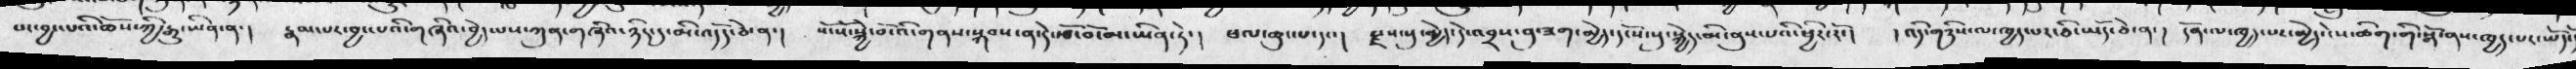པང་བྱང་པའི་ཆོས་ཀྱི་རྒྱུ་ཡིན་ན་།  རྣམ་པར་བྱ་པའི་གཞིའ་བྱེད་པས་ཀུན་གཞིའ་ཉིད་དུ་མི་འདོད་ཅེ་ན་།  སོ་སོ་སྐྱེ་བོ་འི་གནས་སྐབས་ན་དེ་རྩོ་བོ་མ་ཡིན་ཏེ་།  ཐལ་ཆུང་པ་དང་།  རྫས་སུ་གྱེད་དེ་འབྲས་བུ་ཟག་མྱེད་དངོས་སུ་སྐྱེད་མི་ནུས་པའི་ཕྱིར་རོ་།  ། འདི་གཉིས་ལ་ཁྱད་པར་ཅི་ཡོད་ཅེ་ན་།  དོན་ལ་ཁྱད་པར་མྱེད་ངེས་ཚིག་གི་སྒོ་ནས་ཁྱད་པར་ཡོད་
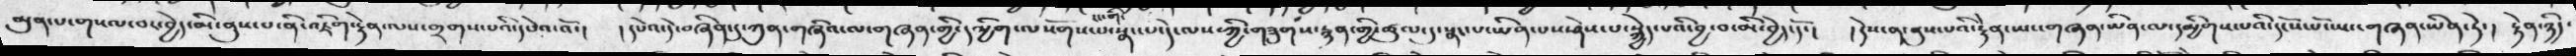མུན་པ་གསལ་བར་བྱེད་མི་ནུས་པ་ནི་འཇིག་རྟེན་ལས་གྲགས་པའི་དཔེའ་འོ་།  ། དཔེའ་དེ་བཞིན་དུ་ཀུན་གཞིའ་ལ་གཞན་གྱི་དམྱིག་ལསོགས་པ་སྣང་པ་དེ་ལས་ཀྱི་གཟུགས་རྙན་གྱི་ཚུལ་དུ་སྣང་པ་ཡིན་པས་ཤེས་པ་སྐྱེད་པའི་བྱ་བ་མི་བྱེད་དོ་།   ། དེས་ན་ནུས་པའི་རྟེན་ཡང་གཞན་མིན་ལ་དམྱིགས་པའི་དངོས་པོ་སྤང་གཞན་ཡིན་ཏེ་།   རྟེན་ཉྱིད་
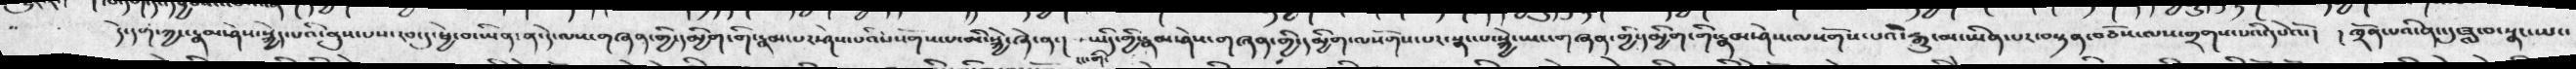དེ་དག་ཀྱང་རྣམ་ཤེས་སྐྱེད་པའི་ནུས་པས་རབ་དུ་ཕྱེ་བ་ཡིན་ན་དེ་ལས་གཞན་གྱི་དམྱིག་གི་རྣམ་པར་ཤེས་པའི་ལསོགས་པ་མི་སྐྱེ་ཞེ་ན་།   ཡིད་ཀྱི་རྣམ་ཤེས་གཞན་གྱི་དམྱིག་ལསོགས་པར་སྣང་པ་སྐྱེ་ཡང་གཞན་གྱི་དམྱིག་གི་རྣམ་ཤེས་ལསོགས་པའི་རྒྱུ་མ་ཡིན་པར་བསྟན་བཅོས་ལས་གྲགས་པའི་དཔེ་ལོ།   །  ཁྲོན་པའི་ནང་དུ་ཟླ་བ་སྣང་ཡང་
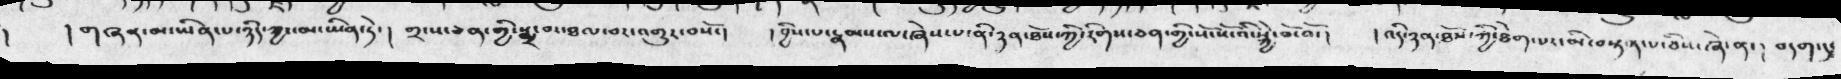།  གཞན་མ་ཡིན་པ་ཉིད་ཀྱང་མ་ཡིན་ཏེ་།  ༢་པ་ཅན་གྱི་སྨྲ་བ་ཐལ་བར་འགྱུར་བསོ་།  ། བྱིས་པ་རྣམས་ལ་ཞེས་པ་ནི་ཉན་ཐོས་ཀྱི་རིགས་ཅན་གྱི་སོ་སོ་འི་སྐྱེ་བོ་འོ་།    ། འདི་ཉན་ཐོས་ཀྱི་ཐེག་པར་མི་བསྟན་པ་ཅིས་ཞེ་ན་།  བདག་དུ་
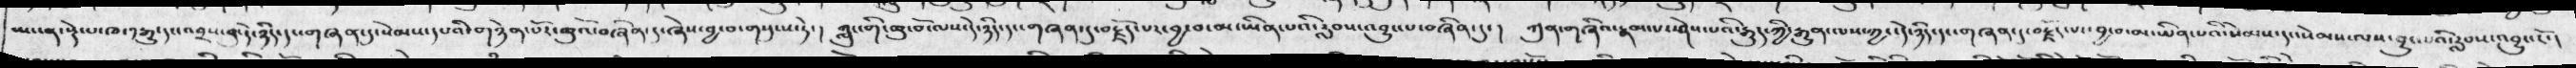ཡང་ན་སྡེ་པ་ཁ་༡རྒྱུ་དང་འབྲས་བུ་དེ་ཉིད་དང་གཞན་དུ་སེམས་དཔའི་གཉེན་པོར་ཆུའོ་བཞིན་དུ་ཞེས་བྱ་བ་གསུངས་ཏེ་།  ཀླུང་གི་ཆུ་བོ་ལས་དེ་ཉིད་དང་གཞན་དུ་བརྗོད་པར་བྱ་བ་མ་ཡིན་པའི་རླབས་འབྱུང་པ་བཞིན་དུ་། ཀུན་གཞིའ་རྣམ་པ་ཤེས་པའི་རྒུད་ཀྱི་རྒྱུན་ལས་ཀྱང་དེ་ཉིད་དང་གཞན་དུ་བརྗོད་པར་བྱ་བ་མ་ཡིན་པའི་སེམས་དང་སེམས་ལས་བྱུང་པའི་རླབས་འབྱུང་ངོ་།
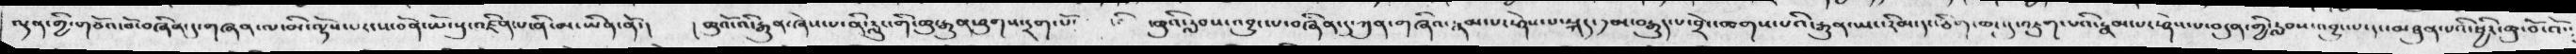ལྡན་གྱི་གཙོ་བོ་བཞིན་དུ་གཞན་ལ་མི་ལྟོས་པར་ས་བོན་ཡོངས་སུ་འཛིན་པ་ནི་མ་ཡིན་ནོ་།   ། ཆུའོ་འི་རྒྱུན་ཞེས་པ་ནི་རླུང་གི་ཆུ་རྒྱུན་ཕུགས་དྲག་པོ་  ཆུའི་རླབས་འབྱུང་པ་བཞིན་དུ་ཀུན་གཞིའ་རྣམ་པར་ཤེས་པ་སྐད་༡མ་བརྒྱུད་པ་བྲེང་ཆགས་པའི་རྒྱུན་ཡང་རིམ་དང་ཅིག་ཆར་དུ་འཇུག་པའི་རྣམ་པར་ཤེས་པ་བདུན་གྱི་རླབས་འབྱུང་པ་དང་མཐུན་པའི་ཕྱིར་ཆུ་བོ་འོ༴
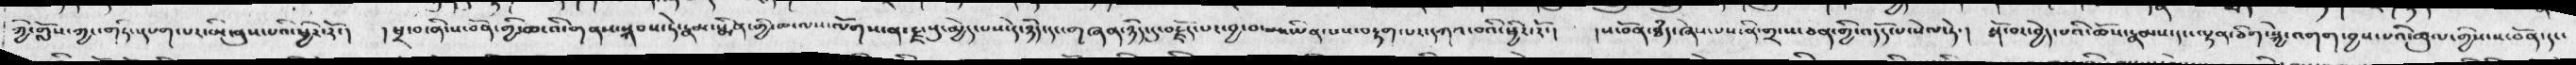ཀྱི་གློས་ཀྱང་གཏིང་དཔག་པར་མི་ནུས་པའི་ཕྱིར་རོ་།  །ཕྲ་བ་ནི་ས་བོན་གྱི་ཆ་འི་གནས་སྐབས་ཏེ་རྣམ་སྨིན་གྱི་ཆ་ལས་ལོགས་ན་རྫསུ་མྱེད་པས་དེ་ཉིད་དང་གཞན་ཉིད་དུ་བརྗོད་པར་བྱ་བ་མ་ཡིན་པས་བརྟག་པར་དཀའ་བའི་ཕྱིར་རོ་།  །ས་བོན་ཐཾད་ཞེས་པས་ནི་གྲངས་ཅན་གྱི་འདོད་པ་སེལ་ཏེ་།  སྒོ་བར་བྱེད་པའི་ཆོས་རྣམས་དང་ལྷན་ཅིག་སྐྱེ་འགག་བྱས་པའི་ཚུལ་གྱིས་ས་བོན་དང་།
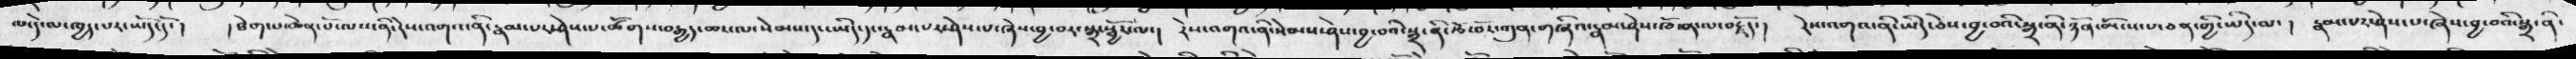ལ་དེ་ལ་ཁྱད་པར་ཡོད་དོ་།  །ཐེག་པ་ཆེན་པོ་ལས་ནི་ངེས་འགའ་ནི་རྣམ་པར་ཤེས་་པ་ཚོགས་བརྒྱད་ཆར་ལ་སེམས་དང་ཡིད་དང་རྣམ་པར་ཤེས་པ་ཞེས་བྱ་བར་སྒྲ་སྦྱོར་ལ་།  རེས་འགའ་ན་ིསེམས་ཤེས་བྱ་བའི་སྒྲ་ནི་རྩོ་བོར་ཀུན་གཞིའ་རྣམ་ཤེས་ཁོ་ན་ལ་བརྗོད་།  རེས་འགའ་ནི་ཡིད་ཅེས་བྱ་བའི་སྒྲ་ནི་ཉོན་མོངས་པ་ཅན་གྱི་ཡིད་ལ་།   རྣམ་པར་ཤེས་པ་ཞེས་་བྱ་བའི་སྒྲ་ནི་
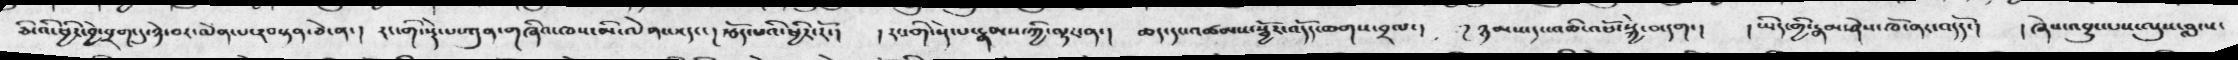ཅི་འི་ཕྱིར་བྱེ་བྲག་དུ་ཉེ་བར་ལེན་པ་༢་བསྟན་ཅེ་ན་།  རང་གི་སྡེ་པས་ཀུན་གཞིའ་ཁས་མི་ལེན་པད་། རྩོད་པའི་ཕྱིར་རོ་།  ། རང་གི་སྡེ་པ་རྣམས་ཀྱི་ལྟར་ན་།  ཆད་དང་འཚམས་སྦྱོར་འདོད་ཆགས་བྲལ་།  ། ཉམས་དང་འཆི་འཕོ་སྐྱེ་བ་དག་།  ། ཡིད་གྱི་རྣམ་ཤེས་ཁོ་ནར་འདོད་།  ། ཞེས་འབྱང་པས་ལུས་བླངས་
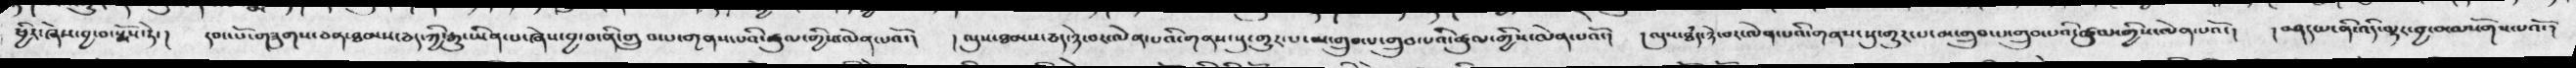ཕྱིར་ཞེས་བྱ་བ་སྨོས་ཏེ་།  དབང་པོ་གཟུགས་ཅན་ཐམས་ཅད་ཀྱི་རྒྱུ་ཡིན་པ་ཞེས་བྱ་ན་གྲུབ་པ་གནས་པའི་ཚུལ་གྱི་ལེན་པའོ་།  ། ལུས་ཐམས་ཅད་ཉེ་བར་ལེན་པའི་གནས་སུ་གྱུར་པ་མ་གྲུབ་པ་གྲུབ་པའི་ཚུལ་གྱིས་ལེན་པའོ་།  ། ལུས་ཐཾད་ཉེ་བར་ལེན་པའི་གནས་སུ་གྱུར་པ་མ་གྲུབ་པ་གྲུབ་པའི་ཚུལ་གྱིས་ལེན་པའོ་།  ། བཤད་པ་ནི་འདི་ལྟར་བྱ་བ་ལསོགས་པའོ་།
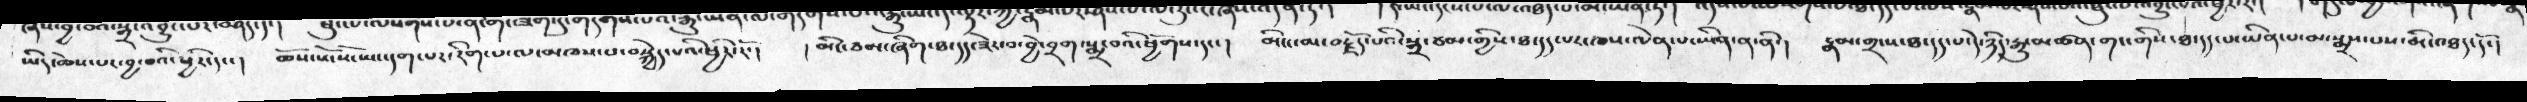ཡིད་ཆེས་པར་བྱ་བའི་ཕྱིར་དང་།  ཆོས་སོ་སོ་ཡང་དག་པར་རིག་པ་ལ་མཁས་པ་བསྐྱེད་པའི་ཕྱིར་རོ་།  ། མིང་ཙམ་ཞིག་ཐ་དད་ཟེར་བ་བྱེ་བྲག་སྨྲ་བའི་ཕྱོགས་དང་།   མིང་མ་བརྗོད་པའི་སྒྲ་ཙམ་གྱིས་ཐ་དད་པར་ཁས་ལེན་པ་ཡིན་ན་ནི།     རྣམ་གྲངས་ཐ་དད་པ་དེ་ཉིད་རྒྱུ་མཚན་གང་གིས་ཐ་དད་པ་ཡིན་པ་མ་སྨྲས་པས་མི་འཐད་དོ་།
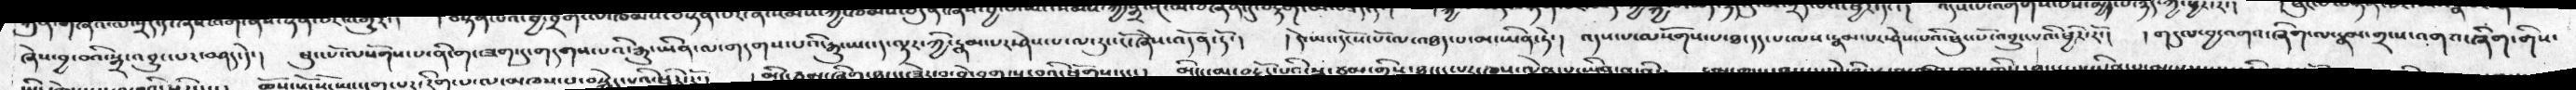ཞེས་བྱ་བའི་སྒྲ་འབྱུང་པར་བཤད་དེ་།  ཕུང་པོ་ལསོགས་པ་ནི་གང་ཟག་དུ་གདགས་པའི་རྒྱུ་ཡིན་ལ་གདགས་པའི་རྒྱུ་ཡང་ད་ལྟར་ཀྱི་རྣམ་པར་ཤེས་པ་ལ་རུང་ངོ་ཞེས་འདོན་དོ་།  དེ་ཡང་དངོས་པོ་ལ་འཐད་པ་མ་ཡིན་ཏེ་།  འདས་པ་ལསོགས་པ་ཐ་དད་པ་ལས་རྣམ་པར་ཤེས་པའི་ཕུང་པོ་འབྱུང་པའི་ཕྱིར་རོ་།  །  གདུལ་བྱ་འགའ་ཞིག་ལ་རྣམ་གྲངས་འགའ་ཞིག་གིས་
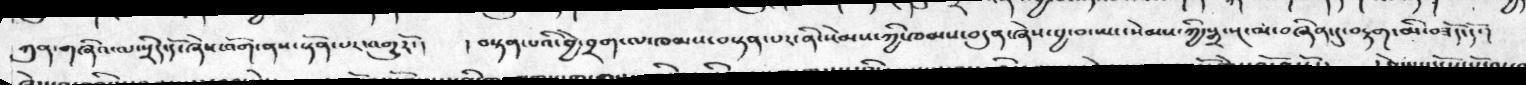ཀུན་གཞིའ་ལ་སྲིད་དོ་ཞེས་འོག་ནས་སྟོན་པར་འགྱུརོ་།  ། བསྟན་པའི་བྱེ་བྲག་ལ་ཁམས་བསྟན་པར་ནི་སེམས་ཀྱི་ཁམས་བདུན་ཞེས་བྱ་བ་ཡང་སེམས་ཀྱི་སྒྲ་སྔ་མ་བཞིནདུ་བརྟག་མི་བཟོད་དོ་།
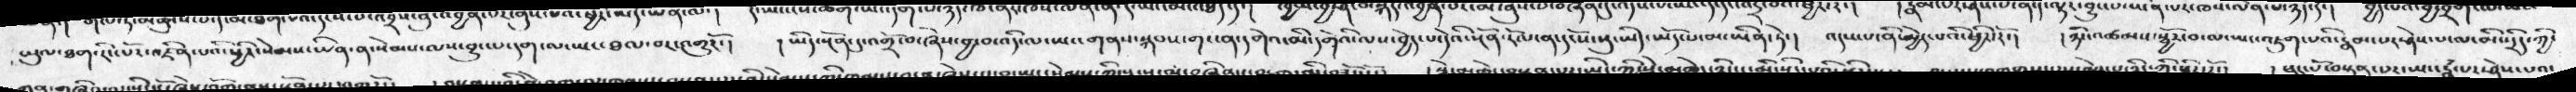ཡུལ་ཐག་རིང་པོ་འཛིན་པའི་ཕྱིར་སེམས་ཡིན་ན་སེམས་ལས་བྱུང་པ་དག་ལ་ཡང་ཐལ་བར་འགྱུརོ་།  །ཡིད་སྔོན་དུ་འགྲོ་བ་ཞེས་བྱ་བ་འདི་ལ་ཡང་གནས་སྐབས་གང་ན་དགེའ་མ་དགེའི་ལས་བྱེད་པ་དེའི་སྔོན་རོལ་ན་དངོས་སུ་ཡིད་ཡོད་པ་མ་ཡིན་ཏེ་།  འདས་པ་ནི་མྱེད་པའི་ཕྱིར་ར་ོ།   །ཉིང་འཚམས་སྦྱོར་བ་ལ་ཡང་འཇུག་པའི་རྣམ་པར་ཤེས་པ་ལ་མི་སྲིད་ཀྱི་
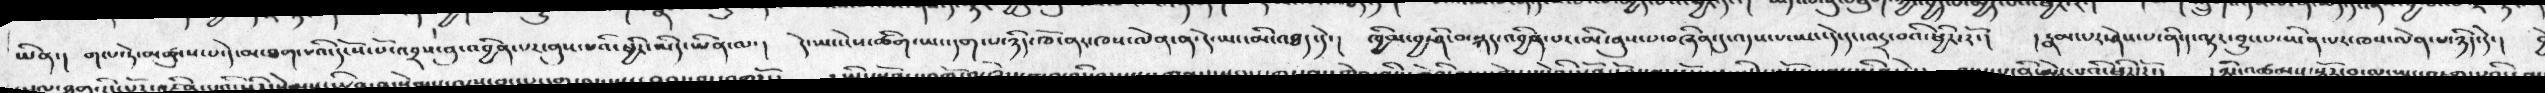ཡིན་།  གལ་ཏེ་མཚུངས་པ་དེ་མ་ཐག་པའི་དངོས་པོ་འབྲས་བུ་འབྱིན་པར་ནུས་པའི་ཕྱིར་ཡིད་ཡིན་ལ་།  དེ་ཡང་ངེས་ཚིག་ཡང་དག་པ་ཉིད་ཁོ་ནར་ཁས་ལེན་ན་དེ་ཡང་མི་འཐད་དེ་།   ཁྱིམ་བྱ་ཤི་བ་སྐད་འབྱིན་པར་མི་ནུས་པ་བཞིན་དུ་འདས་པ་ཡང་དེ་དང་འདྲ་བའི་ཕྱིར་རོ་།  །རྣམ་པར་ཤེས་པ་ནི་ད་ལྟར་བྱུང་པ་ཡིན་པར་ཁས་ལེན་པ་ཉིད་དེ་།  བྱེ
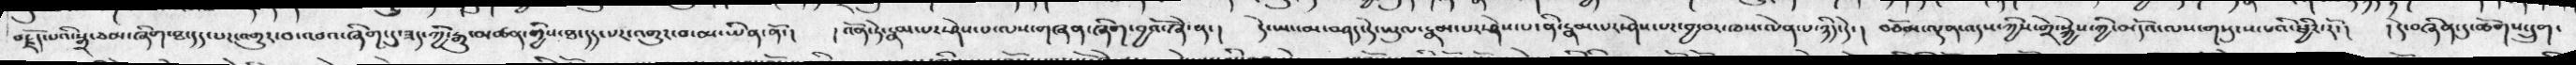བརྗོད་པའི་སྒྲ་ཙམ་ཞིག་ཐ་དད་པར་འགྱུར་བ་འབའ་ཞིག་དུ་ཟད་ཀྱི་རྒྱུ་མཚན་གྱིས་ཐ་དད་པར་འགྱུར་བ་མ་ཡིན་ནོ་།  ། འོན་ཏེ་རྣམ་པར་ཤེས་པ་ལས་གཞན་ཞིག་བྱའོ་ཞེ་ན་།   དེ་ཡང་མ་བཤད་དེ་ཡུལ་རྣམ་པར་ཤེས་པ་ནི་རྣམ་པར་ཤེས་པར་བྱ་བར་ཁས་ལེན་པ་ཉིད་དེ་།  བཅོམ་ལྡན་འདས་ཀྱིས་གྲེ་སྐྱེས་ཀྱི་མདོའ་ལས་གསུངས་པའི་ཕྱིར་རོ་།  ། དེ་བཞིན་དུ་ཚོགས་དྲུག་
